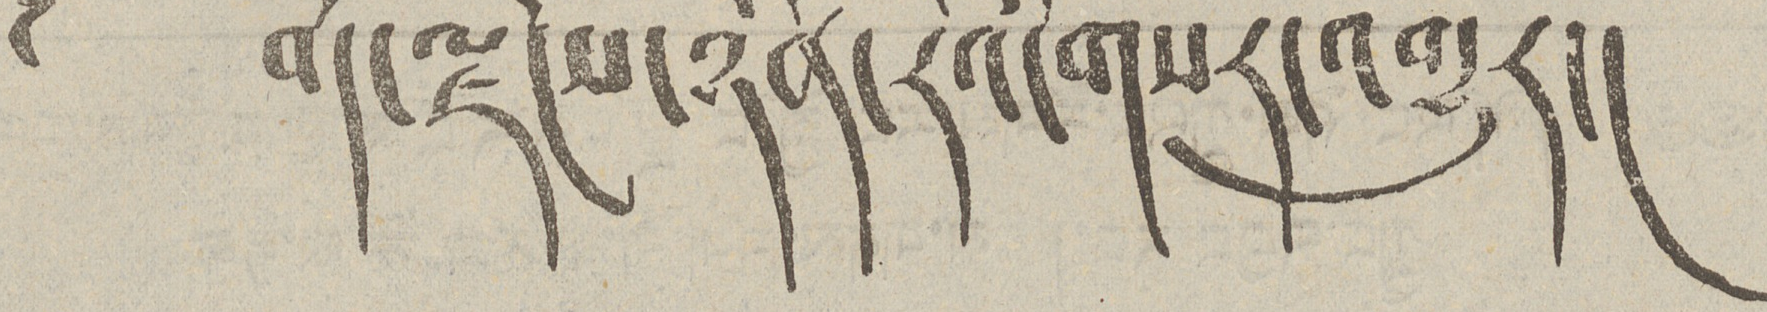༄ བོད་ལྗོངས་ཉིན་རེའི་གསར་འགྱུར།
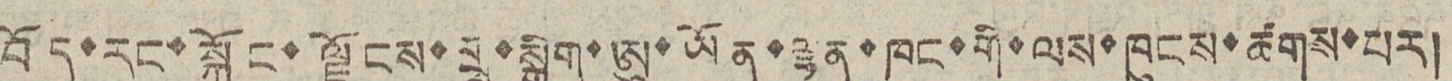བོད་རང་སྐྱོང་ལྗོངས་གྲྭ་སྒྲིག་ཨུ་ཡོན་ལྷན་ཁང་གི་ལས་ཁུངས་ཚགས་པར།
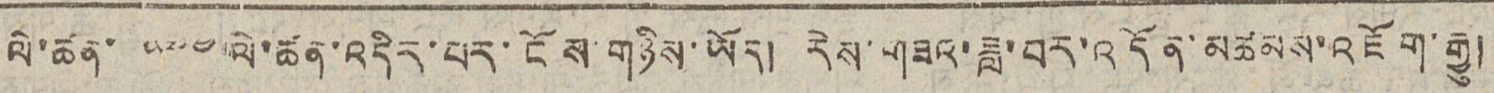ལི་ཚན་ ༥༧༤ ལེ་ཚན་འདིར་པར་ངོས་གཉིས་ཡོད། རེས་གཟའ་ཟླ་བར་འདོན་མཚམས་འཇོག་རྒྱུ།
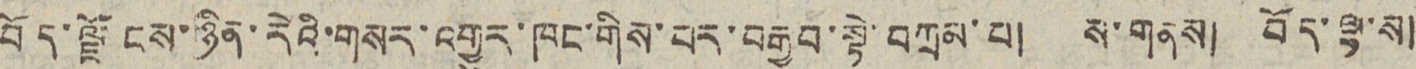བོད་ལྗོངས་ཉིན་རེའི་གསར་འགྱུར་ཁང་གིས་པར་བརྒྱབ་སྟེ་བཀྲམ་པ། ས་གནས། བོད་ལྟ་ས།
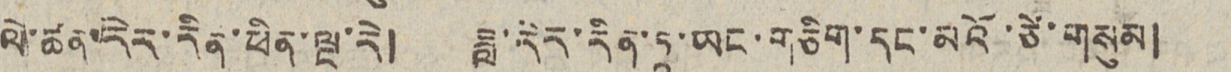ལེ་ཚན་རེར་རིན་ཕིན་ལྔ་རེ། ཟླ་རིར་རིན་ཏཱ་ཡང་གཅིག་དང་མའོ་ཙེ་གསུམ།
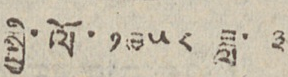སྤྱི་ལོ་ ༡༩༥༨ ཟླ་ ༣
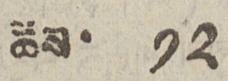ཚེས་ ༡༢
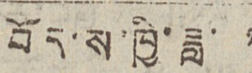བོད་ས་ཁྱི་ཟླ་ ༡
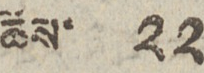ཚེས་ ༢༢
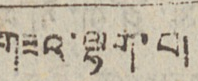གཟའ་ལྷག་པ།
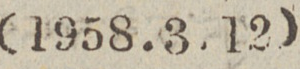(1958.3.12)
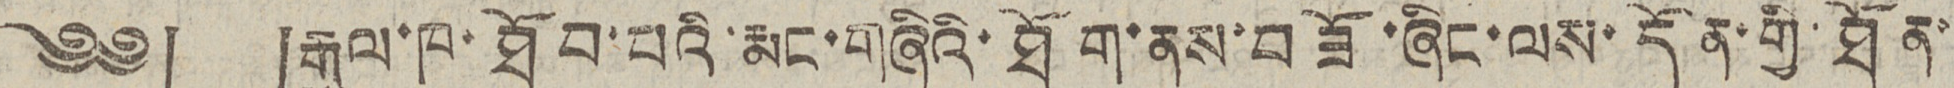༄༅། །རྒྱལ་ཁ་ཐོབ་པའི་རྨང་གཞིའི་ཐོག་ནས་བཟོ་ཞིང་ལས་དོན་གྱི་ཐོན་
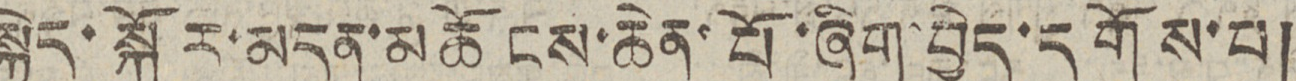སྐྱེད་སྐོར་མདུན་མཆོངས་ཆེན་པོ་ཞིག་བྱེད་དགོས་པ།
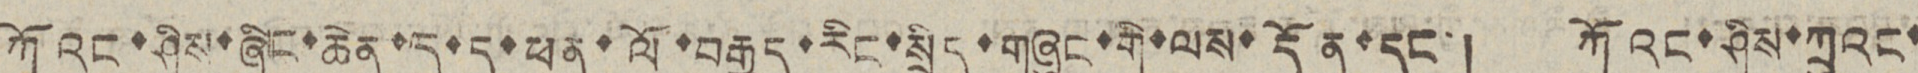ཀོའང་ཤིས་ཞིང་ཆེན་དུ་ད་ཕན་ལོ་བརྒྱད་རིང་སྲིད་གཞུང་གི་ལས་དོན་དང་། ཀོའང་ཤིས་ཀྲུའང་
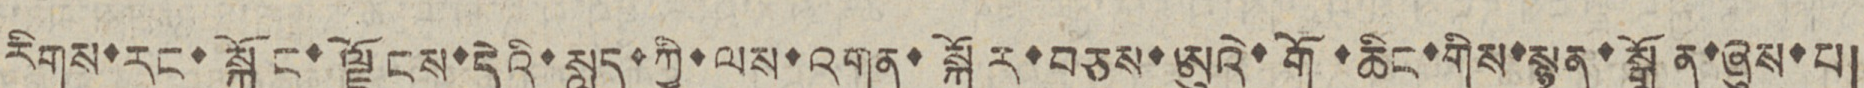རིགས་རང་སྐྱོང་ལྗོངས་དེའི་སླད་ཀྱི་ལས་འགན་སྐོར་བཅས་ཨུའེ་གོ་ཆིང་གིས་སྙན་སྒྲོན་ཞུས་པ།
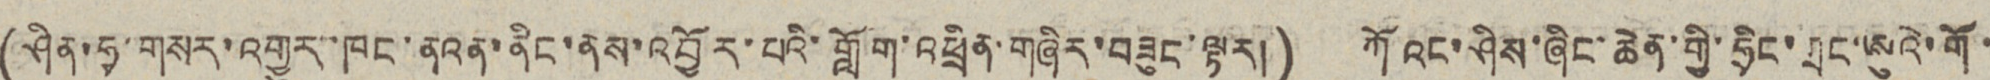(ཤིན་ཧྭ་གསར་འགྱུར་་ཁང་ནའན་ནིང་ནས་འབྱོར་པའི་གློག་འཕྲིན་གཞིར་བཟུང་ལྟར།) ཀོའང་ཤིས་ཞིང་ཆེན་གྱི་ཧྲིང་ཀྲང་ཨུའེ་གོ་
